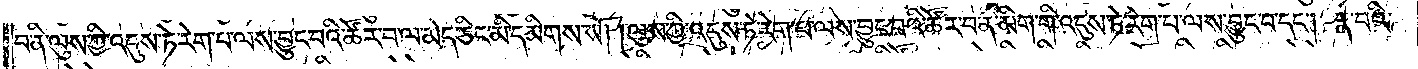བ་ནི་ལུས་ཀྱི་འདུས་ཏེ་རེག་པ་ལས་བྱུང་བའི་ཚོར་བ་ལ་མེད་ཅིང་མི་དམིགས་སོ། །ལུས་ཀྱི་འདུས་ཏེ་རེག་པ་ལས་བྱུང་བའི་ཚོར་བ་ནི་མིག་གི་འདུས་ཏེ་རེག་པ་ལས་བྱུང་བ་དང༌། རྣ་བའི་
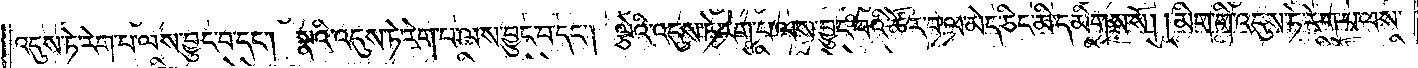འདུས་ཏེ་རེག་པ་ལས་བྱུང་བ་དང༌། སྣའི་འདུས་ཏེ་རེག་པ་ལས་བྱུང་བ་དང༌། ལྕེའི་འདུས་ཏེ་རེག་པ་ལས་བྱུང་བའི་ཚོར་བ་ལ་མེད་ཅིང་མི་དམིགས་སོ། །མིག་གི་འདུས་ཏེ་རེག་པ་ལས་
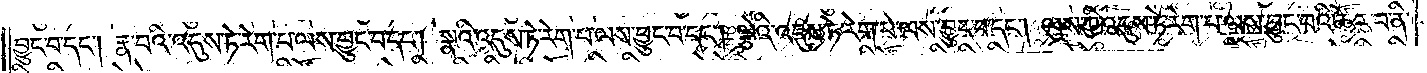བྱུང་བ་དང༌། རྣ་བའི་འདུས་ཏེ་རེག་པ་ལས་བྱུང་བ་དང༌། སྣའི་འདུས་ཏེ་རེག་པ་ལས་བྱུང་བ་དང༌། ལྕེའི་འདུས་ཏེ་རེག་པ་ལས་བྱུང་བ་དང༌། ལུས་ཀྱི་འདུས་ཏེ་རེག་པ་ལས་བྱུང་བའི་ཚོར་བ་ནི་
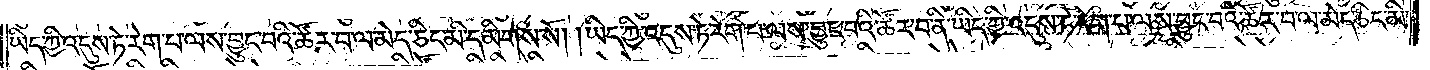ཡིད་ཀྱི་འདུས་ཏེ་རེག་པ་ལས་བྱུང་བའི་ཚོར་བ་ལ་མེད་ཅིང་མི་དམིགས་སོ། །ཡིད་ཀྱི་འདུས་ཏེ་རེག་པ་ལས་བྱུང་བའི་ཚོར་བ་ནི་ཡིད་ཀྱི་འདུས་ཏེ་རེག་པ་ལས་བྱུང་བའི་ཚོར་བ་ལ་མེད་ཅིང་མི་
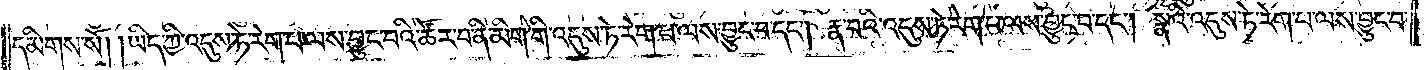དམིགས་སོ། །ཡིད་ཀྱི་འདུས་ཏེ་རེག་པ་ལས་བྱུང་བའི་ཚོར་བ་ནི་མིག་གི་འདུས་ཏེ་རེག་པ་ལས་བྱུང་བ་དང༌། རྣ་བའི་འདུས་ཏེ་རེག་པ་ལས་བྱུང་བ་དང༌། སྣའི་འདུས་ཏེ་རེག་པ་ལས་བྱུང་བ་
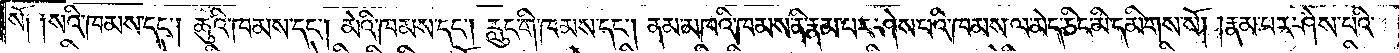སོ། །སའི་ཁམས་དང༌། ཆུའི་ཁམས་དང༌། མེའི་ཁམས་དང༌། རླུང་གི་ཁམས་དང༌། ནམ་མཁའི་ཁམས་ནི་རྣམ་པར་ཤེས་པའི་ཁམས་ལ་མེད་ཅིང་མི་དམིགས་སོ། །རྣམ་པར་ཤེས་པའི་
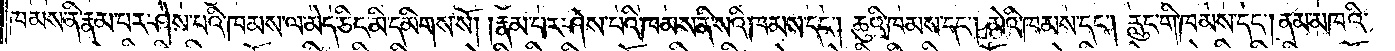ཁམས་ནི་རྣམ་པར་ཤེས་པའི་ཁམས་ལ་མེད་ཅིང་མི་དམིགས་སོ། །རྣམ་པར་ཤེས་པའི་ཁམས་ནི་སའི་ཁམས་དང༌། ཆུའི་ཁམས་དང༌། མེའི་ཁམས་དང༌། རླུང་གི་ཁམས་དང༌། ནམ་མཁའི་
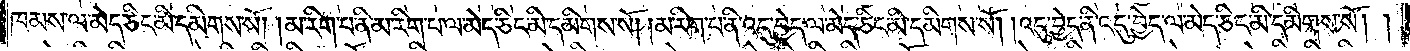ཁམས་ལ་མེད་ཅིང་མི་དམིགས་སོ། །མ་རིག་པ་ནི་མ་རིག་པ་ལ་མེད་ཅིང་མི་དམིགས་སོ། །མ་རིག་པ་ནི་འདུ་བྱེད་ལ་མེད་ཅིང་མི་དམིགས་སོ། །འདུ་བྱེད་ནི་འདུ་བྱེད་ལ་མེད་ཅིང་མི་དམིགས་སོ། །
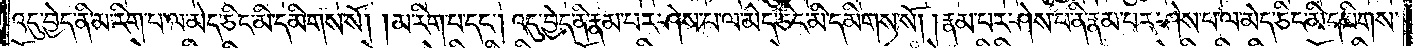འདུ་བྱེད་ནི་མ་རིག་པ་ལ་མེད་ཅིང་མི་དམིགས་སོ། །མ་རིག་པ་དང༌། འདུ་བྱེད་ནི་རྣམ་པར་ཤེས་པ་ལ་མེད་ཅིང་མི་དམིགས་སོ། །རྣམ་པར་ཤེས་པ་ནི་རྣམ་པར་ཤེས་པ་ལ་མེད་ཅིང་མི་དམིགས་
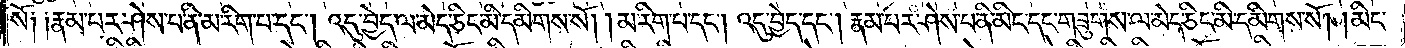སོ། །རྣམ་པར་ཤེས་པ་ནི་མ་རིག་པ་དང༌། འདུ་བྱེད་ལ་མེད་ཅིང་མི་དམིགས་སོ། །མ་རིག་པ་དང༌། འདུ་བྱེད་དང༌། རྣམ་པར་ཤེས་པ་ནི་མིང་དང་གཟུགས་ལ་མེད་ཅིང་མི་དམིགས་སོ། །མིང་
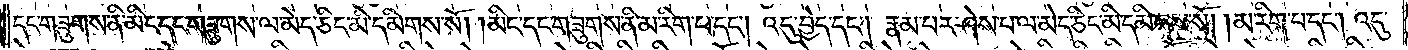དང་གཟུགས་ནི་མིང་དང་གཟུགས་ལ་མེད་ཅིང་མི་དམིགས་སོ། །མིང་དང་གཟུགས་ནི་མ་རིག་པ་དང༌། འདུ་བྱེད་དང༌། རྣམ་པར་ཤེས་པ་ལ་མེད་ཅིང་མི་དམིགས་སོ། །མ་རིག་པ་དང༌། འདུ་
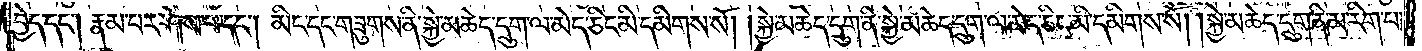བྱེད་དང༌། རྣམ་པར་ཤེས་པ་དང༌། མིང་དང་གཟུགས་ནི་སྐྱེ་མཆེད་དྲུག་ལ་མེད་ཅིང་མི་དམིགས་སོ། །སྐྱེ་མཆེད་དྲུག་ནི་སྐྱེ་མཆེད་དྲུག་ལ་མེད་ཅིང་མི་དམིགས་སོ། །སྐྱེ་མཆེད་དྲུག་ནི་མ་རིག་པ་
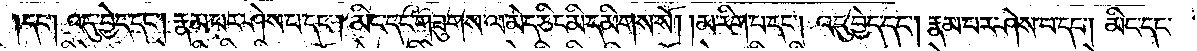དང༌། འདུ་བྱེད་དང༌། རྣམ་པར་ཤེས་པ་དང༌། མིང་དང་གཟུགས་ལ་མེད་ཅིང་མི་དམིགས་སོ། །མ་རིག་པ་དང༌། འདུ་བྱེད་དང༌། རྣམ་པར་ཤེས་པ་དང༌། མིང་དང་
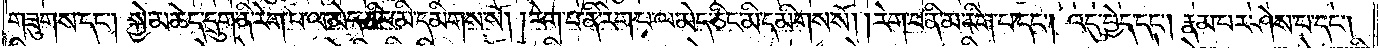གཟུགས་དང༌། སྐྱེ་མཆེད་དྲུག་ནི་རེག་པ་ལ་མེད་ཅིང་མི་དམིགས་སོ། །རེག་པ་ནི་རེག་པ་ལ་མེད་ཅིང་མི་དམིགས་སོ། །རེག་པ་ནི་མ་རིག་པ་དང༌། འདུ་བྱེད་དང༌། རྣམ་པར་ཤེས་པ་དང༌།
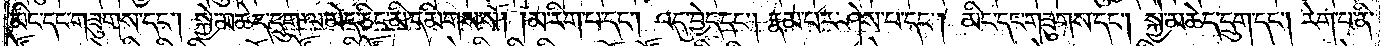མིང་དང་གཟུགས་དང༌། སྐྱེ་མཆེད་དྲུག་ལ་མེད་ཅིང་མི་དམིགས་སོ། །མ་རིག་པ་དང༌། འདུ་བྱེད་དང༌། རྣམ་པར་ཤེས་པ་དང༌། མིང་དང་གཟུགས་དང༌། སྐྱེ་མཆེད་དྲུག་དང༌། རེག་པ་ནི་
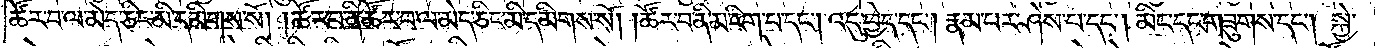ཚོར་བ་ལ་མེད་ཅིང་མི་དམིགས་སོ། །ཚོར་བ་ནི་ཚོར་བ་ལ་མེད་ཅིང་མི་དམིགས་སོ། །ཚོར་བ་ནི་མ་རིག་པ་དང༌། འདུ་བྱེད་དང་རྣམ་པར་ཤེས་པ་དང༌། མིང་དང་གཟུགས་དང༌། སྐྱེ་
